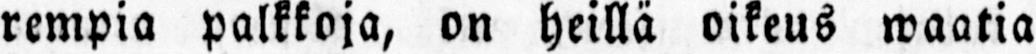rempia palkkoja, on heillä oikeus waatia
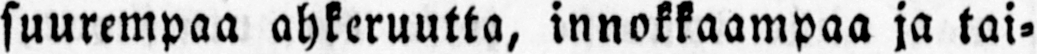suurempaa ahkeruutta, innokkaampaa ja tai-
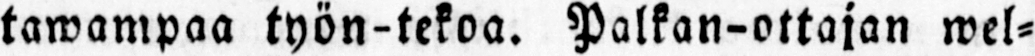tawampaa työn-tekoa. Palkan-ottajan wel-
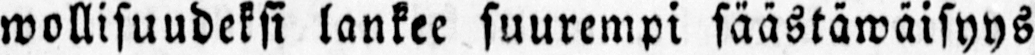wollisuudeksi lankee suurempi säästäwäisyys
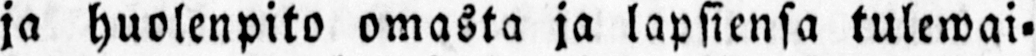ja huolenpito omasta ja lapsiensa tulewai-
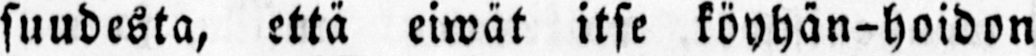suudesta, että eiwät itse köyhän-hoidon
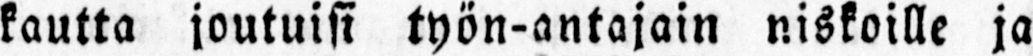kautta joutuisi työn-antajain niskoille ja
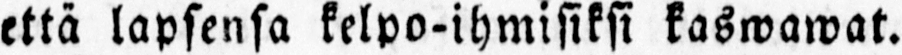että lapsensa kelpo-ihmisiksi kaswawat.
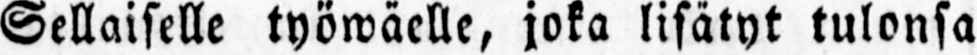Sellaiselle työwäelle, joka lisätyt tulonsa
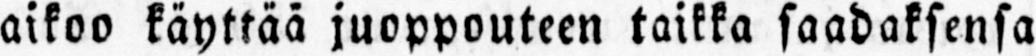aikoo käyttää juoppouteen taikka säädöksensä
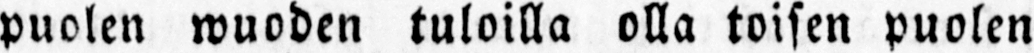puolen wuoden tuloilla olla toisen puolen
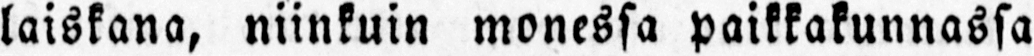laiskana, niinkuin monessa paikkakunnassa
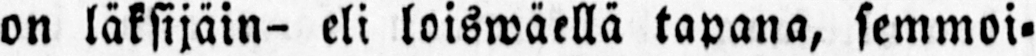on läksijäin- eli loiswäellä tapana, semmoi-
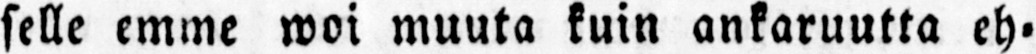selle emme woi muuta kuin ankaruutta eh-
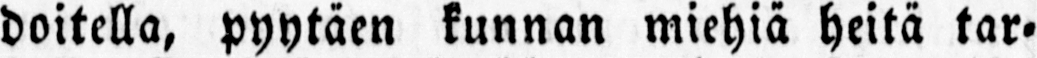doitella, pyytäen kunnan miehiä heitä tar-
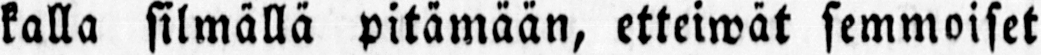kalla silmällä pitämään, etteiwät semmoiset
